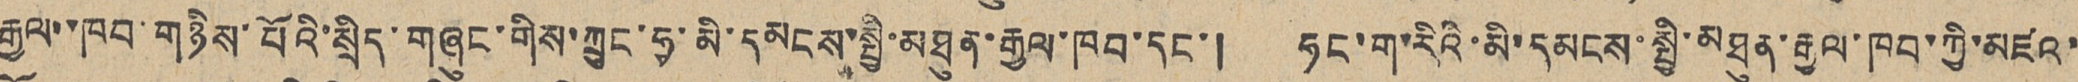རྒྱལ་ཁབ་གཉིས་པོའི་སྲིད་གཞུང་གིས་ཀྲུང་ཧྭ་མི་དམངས་སྤྱི་མཐུན་རྒྱལ་ཁབ་དང་། ཧང་ག་རིའི་མི་དམངས་སྤྱི་མཐུན་རྒྱལ་ཁབ་ཀྱི་མཛའ་
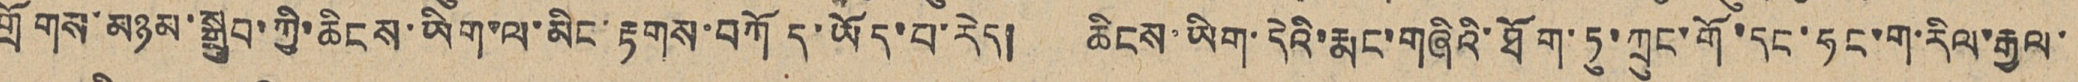གྲོགས་མཉམ་སྒྲུབ་ཀྱི་ཆིངས་ཡིག་ལ་མིང་རྟགས་བཀོད་ཡོད་པ་རེད། ཆིངས་ཡིག་དེའི་རྨང་གཞིའི་ཐོག་ཏུ་ཀྲུང་གོ་དང་ཧང་ག་རིལ་རྒྱལ་
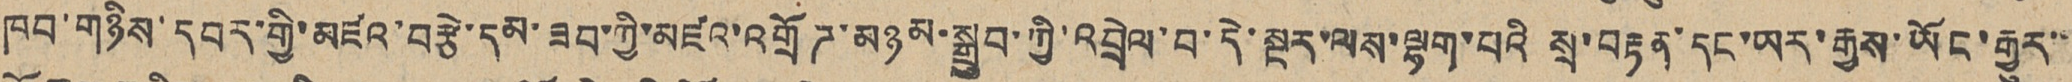ཁབ་གཉིས་དབར་གྱི་མཛའ་བརྩེ་དམ་ཟབ་གྱི་མཛའ་འགྲོཊ་མཉམ་སྒྲུབ་ཀྱི་འབྲེལ་བ་དེ་སྔར་ལས་ལྷག་པའི སྲ་བརྟན་དང་ཡར་རྒྱས་ཡོང་རྒྱུར་་
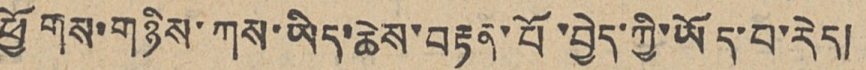ཕྱོགས་གཉིས་ཀས་ཡིད་ཆེས་བརྟན་པོ་བྱེད་ཀྱི་ཡོད་པ་རེད།
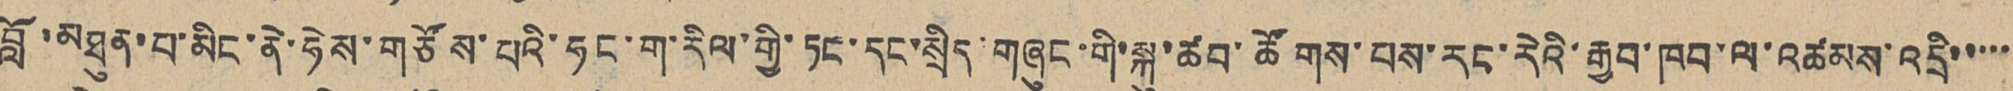བློ་མཐུན་པ་མིང་ནེ་ཧེས་གཙོས་པའི་ཧང་ག་རིལ་གྱི་ཏང་དང་སྲིད་གཞུང་གི་སྐུ་ཚབ་ཚོགས་པས་རང་རེའི་རྒྱབ་ཁབ་ལ་འཚམས་འདྲི་་་་་
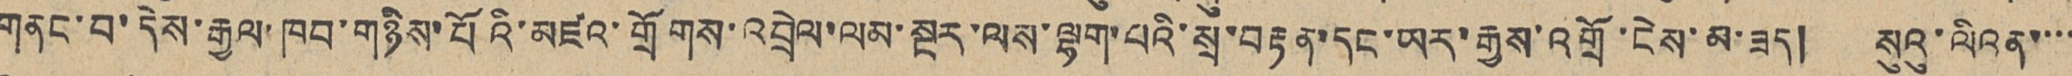གནང་བ་དེས་རྒྱལ་ཁབ་གཉིས་པོའི་མཛའ་གྲོགས་འབྲེལ་ལམ་སྔར་ལས་ལྷག་པའི་སྲ་བརྟན་དང་ཡར་རྒྱས་འགྲོ་ངེས་མ་ཟད། སུའུ་ལིའན་་་་
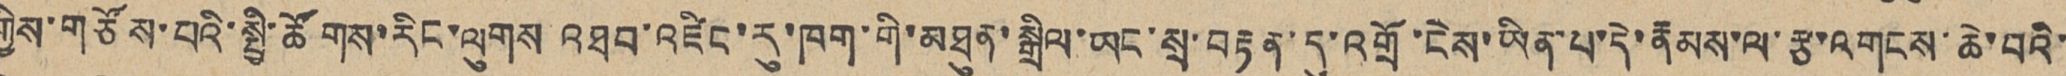གྱིས་གཙོས་པའི་སྤྱི་ཚོགས་རིང་ལུགས འཐབ་འཛིང་རུ་ཁག་གི་མཐུན་སྒྲིལ་ཡང་སྲ་བརྟན་དུ་འགྲོ་ངེས་ཡིན་པ་དེ་རྣམས་ལ་རྩ་འགངས་ཆེ་བའི་
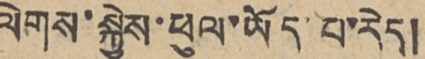ལེགས་སྐྱེས་ཕུལ་ཡོད་པ་རེད།
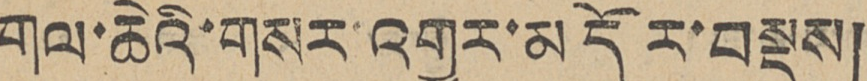གལ་ཆེའི་གསར་འགྱུར་མདོར་བསྡུས།
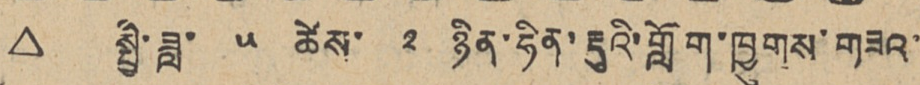△ སྤྱི་ཟླ་ ༥ ཚེས་ ༢ ཉིན་ཧིན་རྡུའི་གློག་ཁྱུགས་གཟའ་
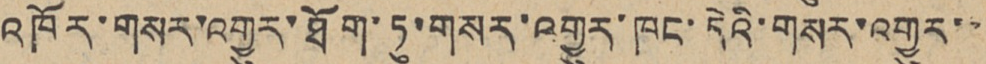འཁོར་གསར་འགྱུར་ཐོག་ཏུ་གསར་འགྱུར་ཁང་དེའི་གསར་འགྱུར་་
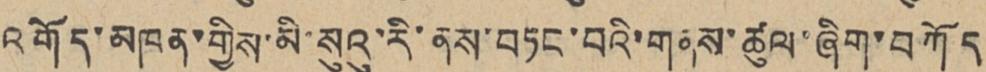འགོད་མཁན་གྱིས་མི་སུའུ་རི་ནས་བཏང་བའི་གནས་ཚུལ་ཞིག་བཀོད
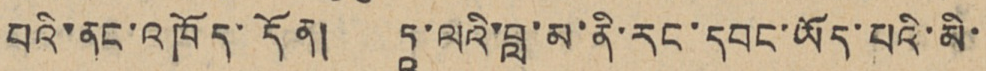པའི་ནང་འཁོད་དོན། ཏཱ་ལའི་བླ་མ་ནི་རང་དབང་ཡོད་པའི་མི་
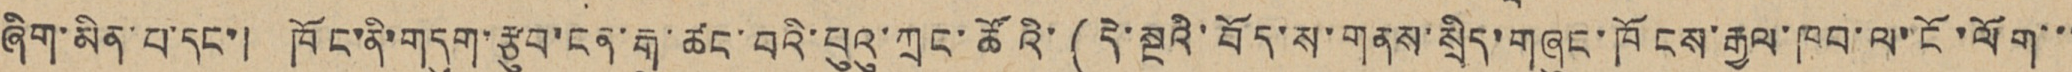ཞིག་མིན་པ་དང་། ཁོང་ནི་གདུག་རྩུབ་ངན་རྒུ་ཚང་བའི་པུའུ་ཀྲང་ཚོའི་(དེ་སྔའི་བོད་ས་གནས་སྲིད་གཞུང་ཁོངས་རྒྱལ་ཁབ་ལ་ངོ་ལོག་་་
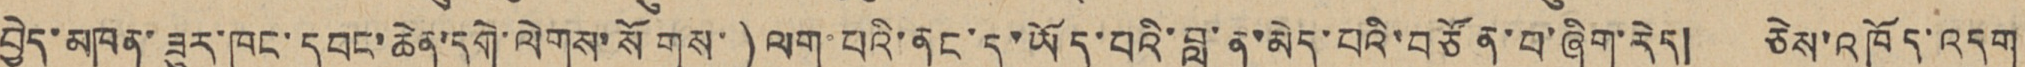བྱེད་མཁན་ཟུར་ཁང་དབང་ཆེན་དགེ་ལེགས་སོགས་)ལག་པའི་ནང་དུ་ཡོད་པའི་བླ་ན་མེད་པའི་བཙོན་པ་ཞིག་རེད། ཅེས་འཁོད་འདུག
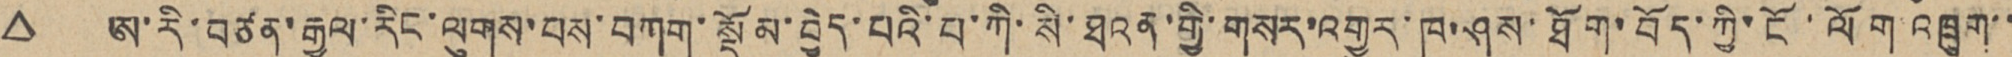△ ཨ་རི་བཙན་རྒྱལ་རིང་ལུགས་པས་བཀག་སྡོམ་བྱེད་པའི་པ་ཀི་སི་ཐའན་གྱི་གསར་འགྱུར་ཁ་ཤས་ཐོག་བོད་ཀྱི་ངོ་ལོག འཁྲུག་་
